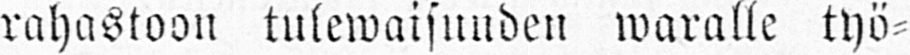rahastoon tulewaisuuden waralle työ-
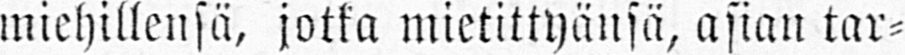miehillensä, jotka mietittyänsä, asian tar-
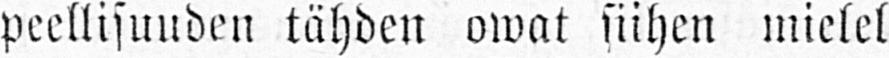peellisuuden tähden owat siihen mielel-
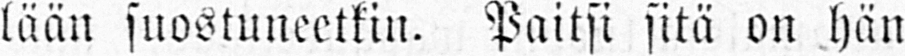lään suostuneetkin. Paitsi sitä on hän
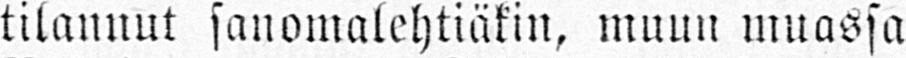tilannut sanomalehtiäkin, muun muassa
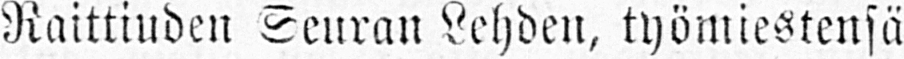Raittiuden Seuran Lehden, työmiestensä
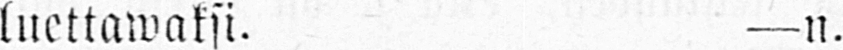luettawaksi. —n.
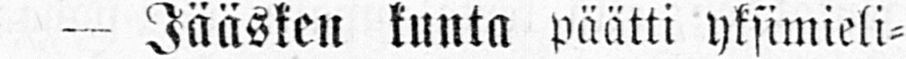— Jääsken kunta päätti yksimieli-
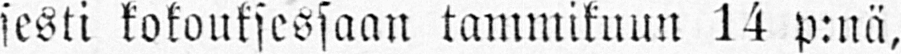sesti kokouksessaan tammikuun 14 p:nä,
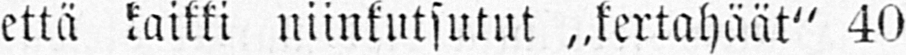että kaikki niinkutsutut „kertahäät" 40
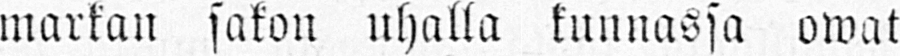markan sakon uhalla kunnassa owat
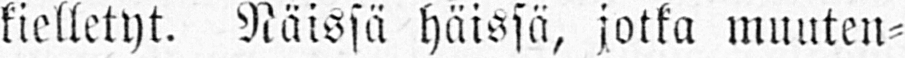kielletyt. Näissä häissä, jotka muuten-
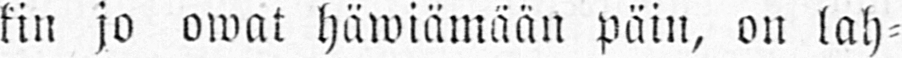kin jo owat häwiämään päin, on lah-
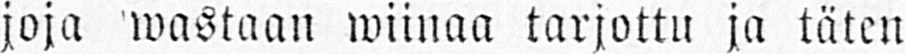joja wastaan wiinaa tarjottu ja täten
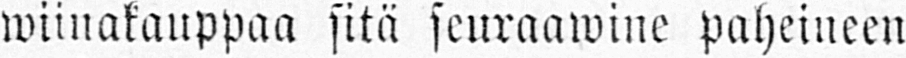wiinakauppaa sitä seuraawine paheineen
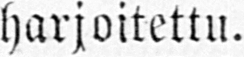harjoitettu.
